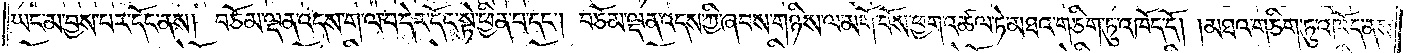ཡང་མ་བྱས་པར་དོང་ནས། བཅོམ་ལྡན་འདས་ག་ལ་བ་དེར་དོང་སྟེ་ཕྱིན་པ་དང༌། བཅོམ་ལྡན་འདས་ཀྱི་ཞབས་གཉིས་ལ་མགོ་བོས་ཕྱག་འཚལ་ཏེ་མཐའ་གཅིག་ཏུ་འཁོད་དོ། །མཐའ་གཅིག་ཏུ་འཁོད་ནས་
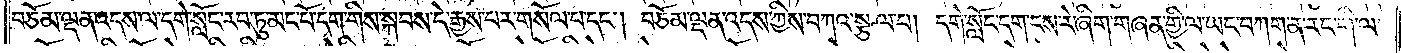བཅོམ་ལྡན་འདས་ལ་དགེ་སློང་རབ་ཏུ་མང་པོ་དག་གིས་སྐབས་དེ་རྒྱས་པར་གསོལ་པ་དང༌། བཅོམ་ལྡན་འདས་ཀྱིས་བཀའ་སྩལ་པ། དགེ་སློང་དག་ངས་རེ་ཞིག་གཞན་གྱི་ལ་ཡང་བཀག་ན་རང་གི་ལ་
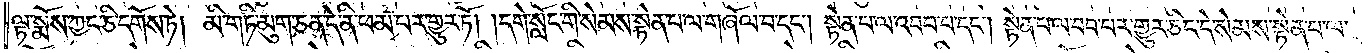ལྟ་སྨོས་ཀྱང་ཅི་དགོས་ཏེ། མི་གཏི་མུག་ཅན་དེ་ནི་ཕམ་པར་གྱུར་ཏོ། །དགེ་སློང་གི་སེམས་སྟེན་པ་ལ་གཞོལ་བ་དང༌། སྟེན་པ་ལ་འབབ་པ་དང༌། སྟེན་པ་ལ་བབ་པར་གྱུར་ཅིང་དེ་སེམས་སྟེན་པ་ལ་
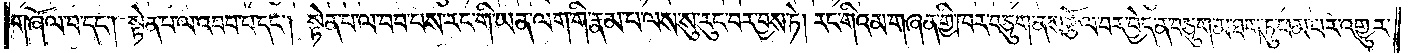གཞོལ་བ་དང༌། སྟེན་པ་ལ་འབབ་པ་དང༌། སྟེན་པ་ལ་བབ་པས་རང་གི་ཡན་ལག་གི་རྣམ་པ་ལས་སུ་རུང་བར་བྱས་ཏེ། རང་གིའམ་གཞན་གྱི་ཁར་བཅུག་ནས་རྩོལ་བར་བྱེད་ན་བཅུག་མ་ཐག་ཏུ་ཕམ་པར་འགྱུར་
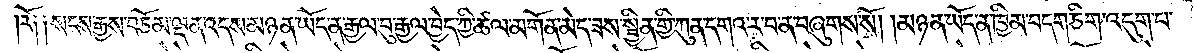རོ༑ ༑སངས་རྒྱས་བཅོམ་ལྡན་འདས་མཉན་ཡོད་ན་རྒྱལ་བུ་རྒྱལ་བྱེད་ཀྱི་ཚལ་མགོན་མེད་ཟས་སྦྱིན་གྱི་ཀུན་དགའ་ར་བ་ན་བཞུགས་སོ། །མཉན་ཡོད་ན་ཁྱིམ་བདག་ཅིག་འདུག་པ་
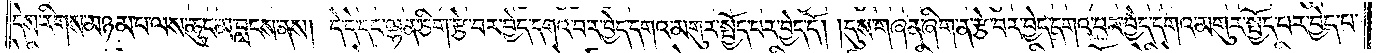དེས་རིགས་མཉམ་པ་ལས་ཆུང་མ་བླངས་ནས། དེ་དེ་དང་ལྷན་ཅིག་རྩེ་བར་བྱེད་དགའ་བར་བྱེད་དགའ་མགུར་སྤྱོད་པར་བྱེད་དོ། །དུས་གཞན་ཞིག་ན་རྩེ་བར་བྱེད་དགའ་བར་བྱེད་དགའ་མགུར་སྤྱོད་པར་བྱེད་པ་
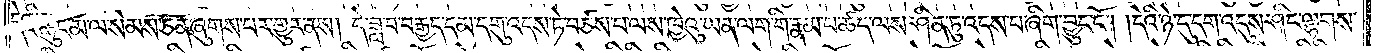དེའི་ཆུང་མ་ལ་སེམས་ཅན་ཞུགས་པར་གྱུར་ནས། དེ་ཟླ་བ་བརྒྱད་དམ་དགུ་འདས་ཏེ་བཙས་པ་ལས་ཁྱེའུ་ཡན་ལག་གི་རྣམ་པ་ཚད་ལས་ཤིན་ཏུ་འདས་པ་ཞིག་བྱུང་ངོ༌། །དེའི་ཉེ་དུ་དག་འདུས་ཤིང་ལྷགས་
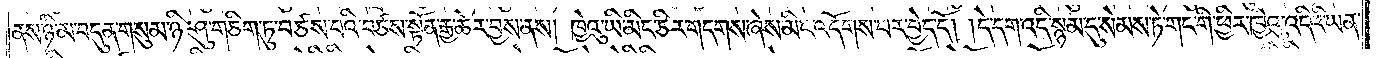ནས་ཉི་མ་བདུན་གསུམ་ཉི་ཤུ་གཅིག་ཏུ་བཙས་པའི་བཙས་སྟོན་རྒྱ་ཆེར་བྱས་ནས། ཁྱེའུ་ཡི་མིང་ཅིར་གདགས་ཞེས་མིང་འདོགས་པར་བྱེད་དོ། །དེ་དག་འདི་སྙམ་དུ་སེམས་ཏེ་གང་གི་ཕྱིར་ཁྱེའུ་འདིའི་ཡན་
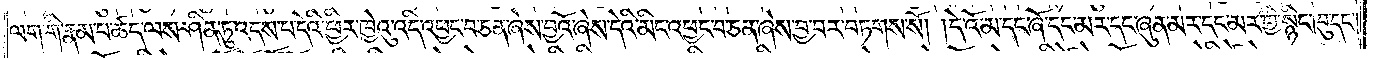ལག་གི་རྣམ་པ་ཚད་ལས་ཤིན་ཏུ་འདས་པ་དེའི་ཕྱིར་ཁྱེའུ་འདི་འཕྱང་བ་ཅན་ཞེས་བྱའོ་ཞེས་དེའི་མིང་འཕྱང་བ་ཅན་ཞེས་བྱ་བར་བཏགས་སོ། །དེ་འོ་མ་དང་ཞོ་དང་མར་དང་ཞུན་མར་དང་མར་གྱི་སྙིང་ཁུ་དང༌།
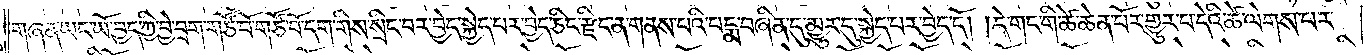གཞན་ཡང་ཡོ་བྱད་ཀྱི་བྱེ་བྲག་གཙོ་བོ་གཙོ་བོ་དག་གིས་སྲིང་བར་བྱེད་སྐྱེད་པར་བྱེད་ཅིང་རྫིང་ན་གནས་པའི་པདྨ་བཞིན་དུ་མྱུར་དུ་སྐྱེད་པར་བྱེད་དོ། །དེ་གང་གི་ཚེ་ཆེན་པོར་གྱུར་པ་དེའི་ཚེ་ལེགས་པར་
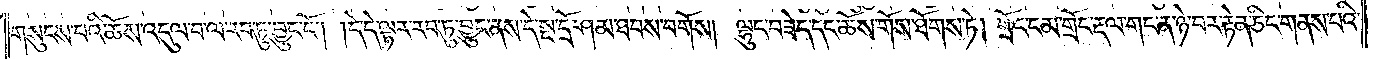གསུངས་པའི་ཆོས་འདུལ་བ་ལ་རབ་ཏུ་བྱུང་ངོ༌། །དེ་དེ་ལྟར་རབ་ཏུ་བྱུང་ནས་དེ་སྔ་དྲོ་ཤམ་ཐབས་བགོས། ལྷུང་བཟེད་དང་ཆོས་གོས་ཐོགས་ཏེ། གྲོང་ངམ་གྲོང་རྡལ་གང་ན་ཉེ་བར་རྟེན་ཅིང་གནས་པའི་
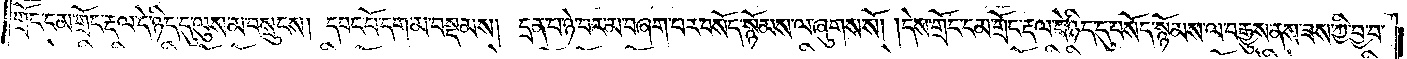གྲོང་ངམ་གྲོང་རྡལ་དེ་ཉིད་དུ་ལུས་མ་བསྲུངས། དབང་པོ་དག་མ་བསྡམས། དྲན་པ་ཉེ་བར་མ་བཞག་པར་བསོད་སྙོམས་ལ་ཞུགས་སོ། །དེས་གྲོང་ངམ་གྲོང་རྡལ་དེ་ཉིད་དུ་བསོད་སྙོམས་ལ་བརྒྱུས་ནས་ཟས་ཀྱི་བྱ་བ་
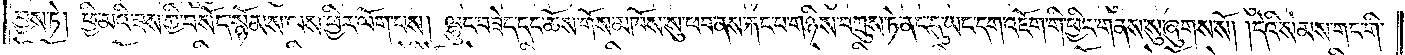བྱས་ཏེ། ཕྱི་མའི་ཟས་ཀྱི་བསོད་སྙོམས་ལས་ཕྱིར་ལོག་པས། ལྷུང་བཟེད་དང་ཆོས་གོས་མཁོས་སུ་ཕབ་ནས་རྐང་པ་གཉིས་བཀྲུས་ཏེ་ནང་དུ་ཡང་དག་འཇོག་གི་ཕྱིར་གནས་སུ་ཞུགས་སོ། །དེའི་སེམས་གང་གི་
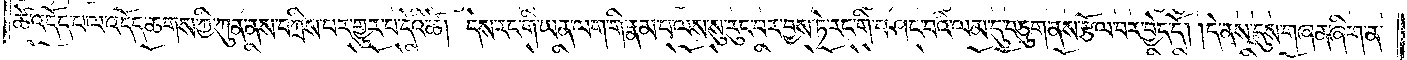ཚེ་འདོད་པ་ལ་འདོད་ཆགས་ཀྱི་ཀུན་ནས་དཀྲིས་པར་གྱུར་པ་དེའི་ཚེ། དེས་རང་གི་ཡན་ལག་གི་རྣམ་པ་ལས་སུ་རུང་བར་བྱས་ཏེ་རང་གི་བཤང་བའི་ལམ་དུ་བཅུག་ནས་རྩོལ་བར་བྱེད་དོ། །དེ་ནས་དུས་གཞན་ཞིག་ན་
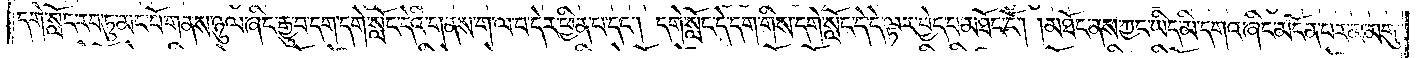དགེ་སློང་རབ་ཏུ་མང་པོ་གནས་ཉུལ་ཞིང་རྒྱུ་བ་དག་དགེ་སློང་དེའི་གནས་ག་ལ་བ་དེར་ཕྱིན་པ་དང༌། དགེ་སློང་དེ་དག་གིས་དགེ་སློང་དེ་དེ་ལྟར་བྱེད་པ་མཐོང་ངོ༌། །མཐོང་ནས་ཀྱང་ཡིད་མི་དགའ་ཞིང་མངོན་པར་མ་མགུ་
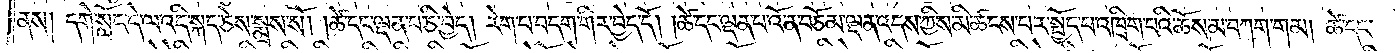ནས། དགེ་སློང་དེ་ལ་འདི་སྐད་ཅེས་སྨྲས་སོ། །ཚེ་དང་ལྡན་པ་ཅི་བྱེད། རེག་པ་བདག་གིར་བྱེད་དོ། །ཚེ་དང་ལྡན་པ་འོ་ན་བཅོམ་ལྡན་འདས་ཀྱིས་མི་ཚངས་པར་སྤྱོད་པ་འཁྲིག་པའི་ཆོས་མ་བཀག་གམ། ཚེ་དང་
